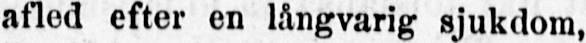afled efter en sjukdom,
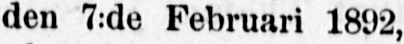Söndagen den 7:de Februari 1892,
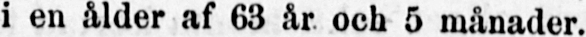i en ålder af 63 år och 5 månader.
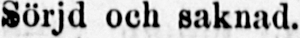Sörjd och saknad.
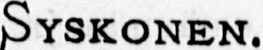SYSKONEN.
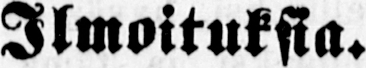Ilmoituksia.
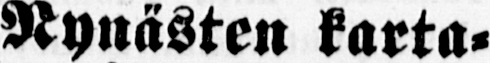Rynästen karta-
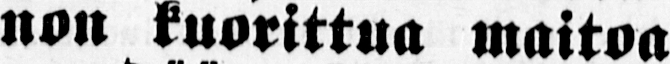non kuorittua maitoa
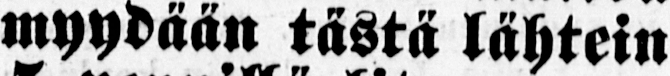myydään tästä lähtein
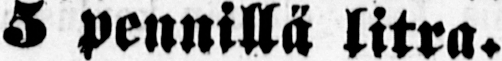5 pennillä litra.
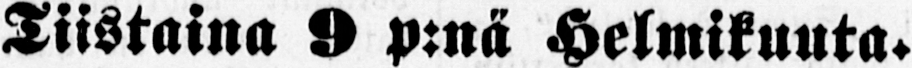Tiistaina 9 p:nä Helmikuuta.
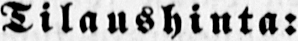Tilaushinta:
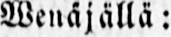Wenäjällä:
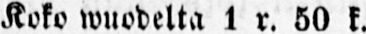Koko wuodelta l r. 50 k.
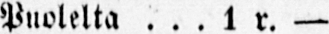Puolelta l r. —
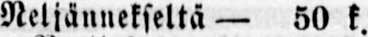Neljännekseltä — 50 k.
